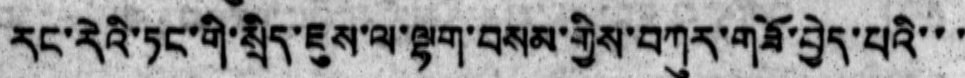རང་རེའི་ཏང་གི་སྲིད་ཇུས་ལ་ལྷག་བསམ་གྱིས་བཀུར་གཟོ་བྱེད་པའི་་་
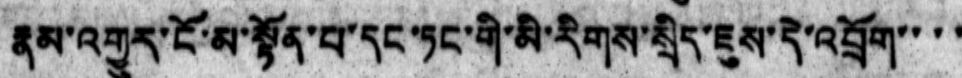རྣམ་འགྱུར་ངོ་མ་སྟོན་པ་དང་ཏང་གི་མི་རིགས་སྲིད་ཇུས་དེ་འབྲོག་་་་
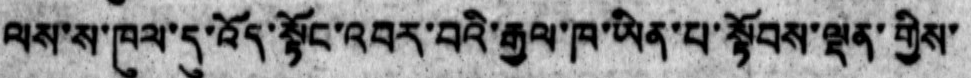ལས་ས་ཁུལ་དུ་འོད་སྟོང་འབར་བའི་རྒྱལ་ཁ་ཡིན་པ་སྟོབས་ལྡན་གྱིས་
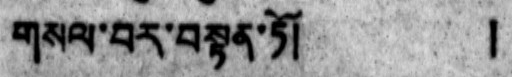གསལ་བར་བསྟན་ཏོ། །
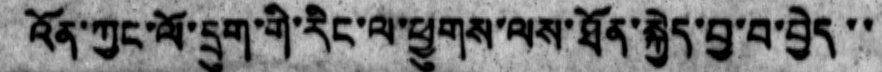འོན་ཀྱང་ལོ་དྲུག་གི་རིང་ལ་ཕྱུགས་ལས་ཐོན་སྐྱེད་བྱ་བ་བྱེད་་
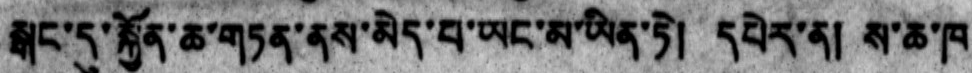སྒང་དུ་སྐྱོན་ཆ་གཏན་ནས་མེད་པ་ཡང་མ་ཡིན་ཏེ། དཔེར་ན། ས་ཆ་ཁ་
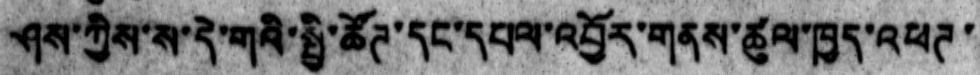ཤས་ཀྱིས་ས་དེ་གའི་སྤྱི་ཚོཊ་དང་དཔལ་འབྱོར་གནས་ཚུལ་ཁྱད་འཕཊ་
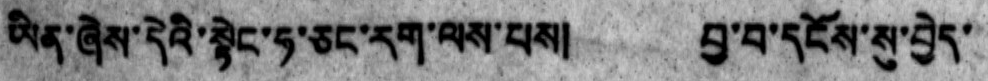ཡིན་ཞེས་དེའི་སྟེང་ཧ་ཅང་རག་ལས་པས། བྱ་བ་དངོས་སུ་བྱེད་
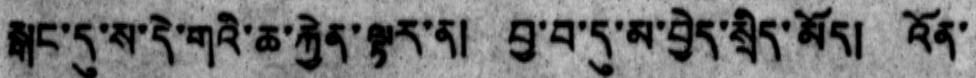སྒང་དུ་ས་དེ་གའི་ཆ་རྐྱེན་ལྟར་ན། བྱ་བ་དུ་མ་བྱེད་སྲིད་མོད། འོན་
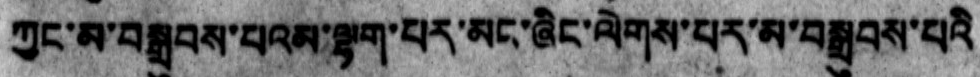ཀྱང་མ་བསྒྲུབས་པའམ་ལྷག་པར་མང་ཞིང་ལེགས་པར་མ་བསྒྲུབས་པའི
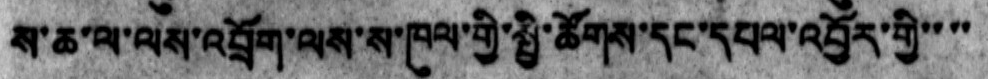ས་ཆ་ལ་ལས་འབྲོག་ལས་ས་ཁུལ་གྱི་སྤྱི་ཚོགས་དང་དཔལ་འབྱོར་གྱི་་་་
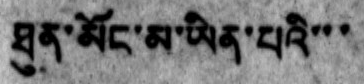ཐུན་མོང་མ་ཡིན་པའི་་་
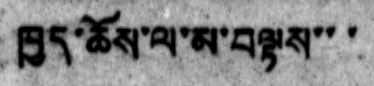ཁྱད་ཆོས་ལ་མ་བལྟས་་་
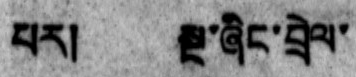པར། སྔ་ཞིང་བྲེལ་
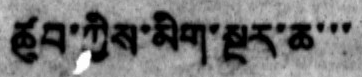ཚུབ་ཀྱིས་མིག་སྔར་ཆ་་་
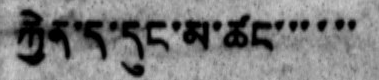རྐྱེན་ད་དུང་མ་ཚང་་་་་་
